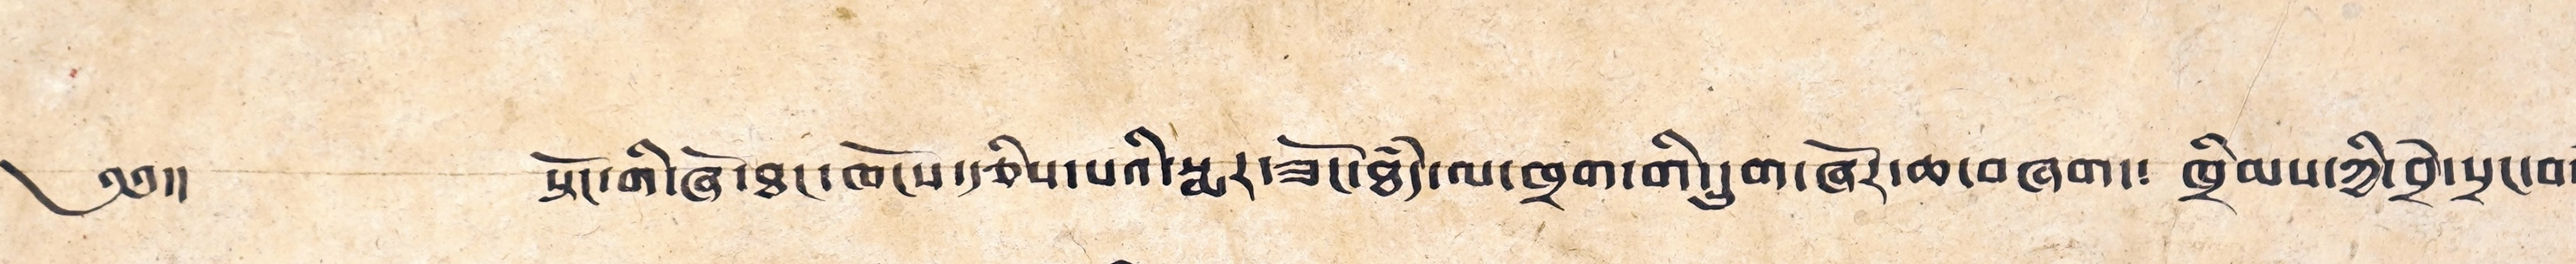༄༅།། སྟོང་གི་ཞོ་ཐང་ཁོངས་རྩིས་པའི་སྨར་ཟོང་ཐཾད་ལ་ཁྲག་གི་དྲུག་ཞོར་ཆ་བཞག་༴ ཁྲིམས་ཀྱི་བྲེ་སྲང་བསཾ་
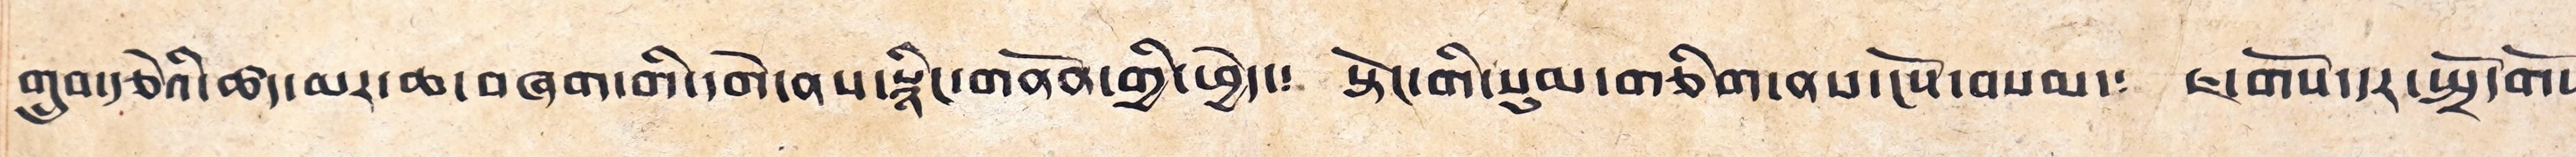གྲུབ་རྩེའི་ཚད་མར་ཆ་བཞག་གི་དགེ་ནས་སྙིང་གནོན་གྱི་ཕྱེད་༴ སྟོང་གི་སུམ་གཅིག་ནས་ངོས་བསམ་༴ ཇ་གོས་དར་སྤྲོད་དགོས༴
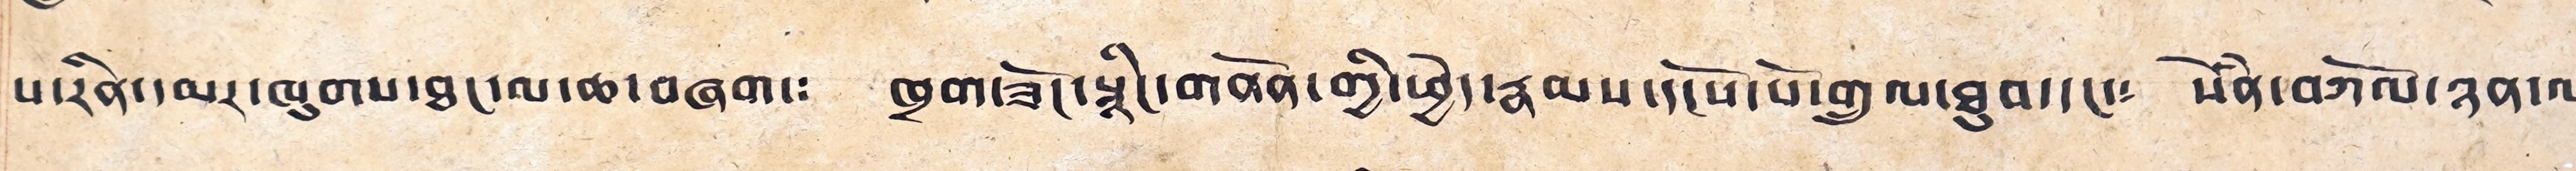པ་རིན་དམར་ཁུགས་ཐང་ལ་ཆ་བཞག་༴ ཁྲག་ཟོང་སྙིང་གནོན་གྱི་ཕྱེད་རྣམས་དངོས་པོ་གྲུལ་ཐུབ་དང་༴ སེཾན་བཀོལ་ཉན་ལ༴
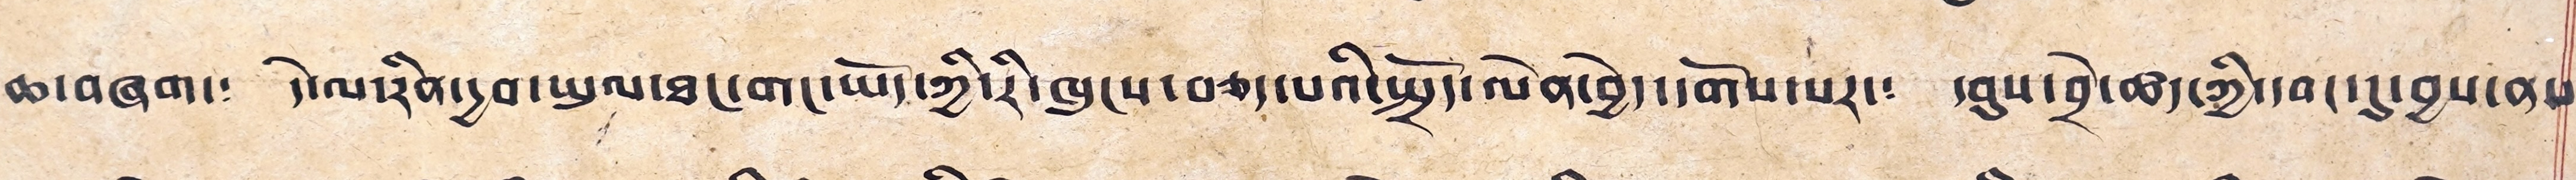ཆ་བཞག་༴ དེ་ལ་རིན་དྱབ་ཡུལ་ཐང་གང་ཡོད་ཀྱི་རི་ཁུངས་བཅད་པའི་སྤྲོད་ལེན་བྱེད་དགོས་པར་༴ དབུས་བྲེ་ཚད་ཀྱི་དབང་དུ་བྱས་ནས༴
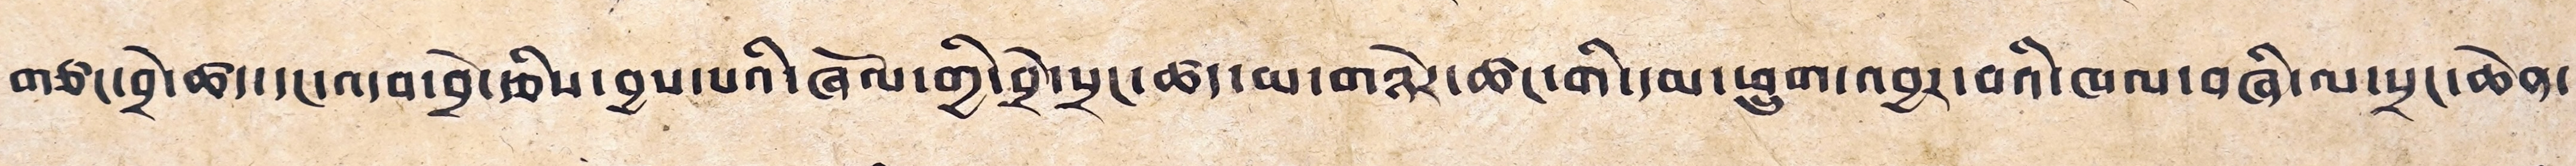གཙང་བྲེ་ཚད་དང་འདབ་བྱེ་རྩིས་བྱས་པའི་ཞོལ་གྱི་བྲེ་སྲང་ཚད་མ་གཉེར་ཚང་གི་དམ་ཕྲུག་འབྱར་བའི་ཁལ་བཞི་ལ་སྲང་ཆེན་
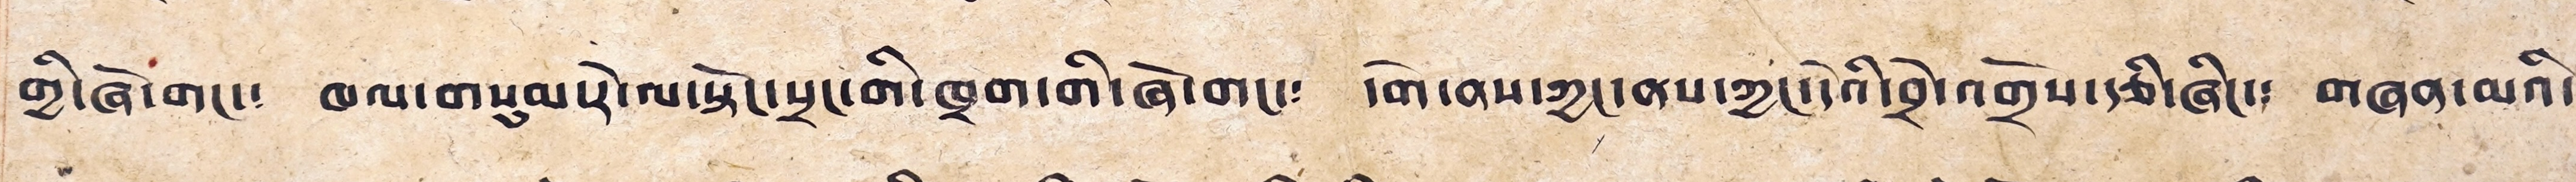གྱི་ཞོ་གང་༴ ཁལ་གསུམ་རེ་ལ་སྟོང་སྲང་གི་ཁྲག་གི་ཞོ་གང་༴ དགེ་ནས་ཀྱང་ནས་ཀྱང་དེའི་བྲེ་འགྲོས་རྩི་ཞིང་༴ གཞན་མའི་
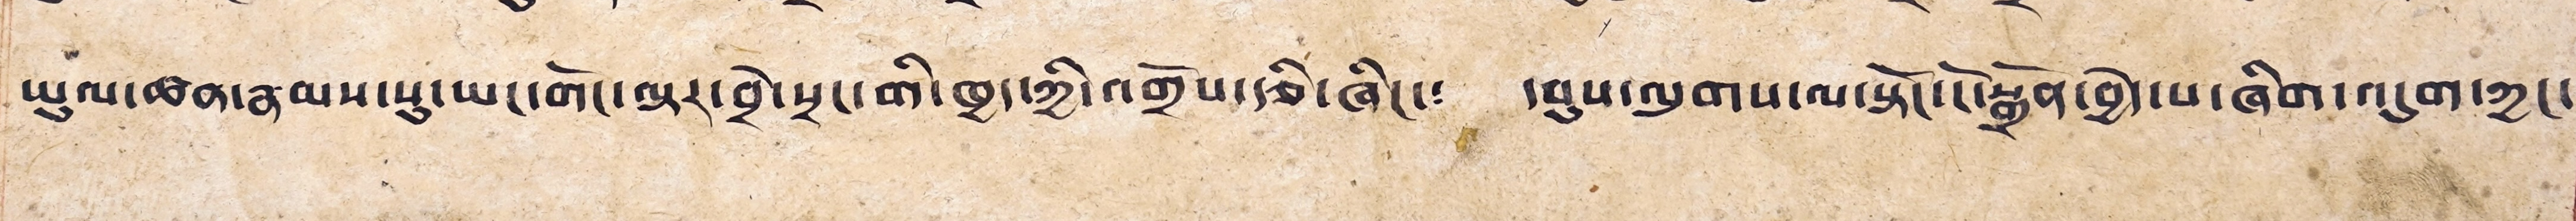ཡུལ་ཚན་རྣམས་སུ་ཡང་གོང་ལྟར་བྲེ་སྲང་གི་ཁྱད་ཀྱི་འགྲོས་རྩི་ཞིང་༴ དབུས་ལུགས་ལ་སྟོང་ངོ་སྒྲོན་བྱེད་པ་ཞིག་འདུག་ཀྱང་
